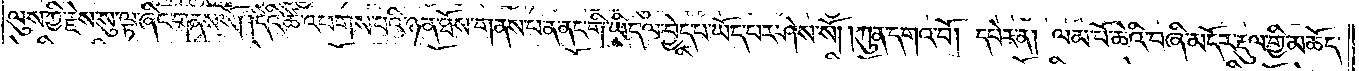ལུས་ཀྱི་རྗེས་སུ་ལྟ་ཞིང་གནས་སོ། །དེའི་ཚེ་འཕགས་པའི་ཉན་ཐོས་གནས་པ་ན་ནང་གི་ཡིད་ལ་བྱེད་པ་ཡོད་པར་ཤེས་སོ། །ཀུན་དགའ་བོ། དཔེར་ན། ལམ་པོ་ཆེའི་བཞི་མདོར་རྡུལ་གྱི་མཆོད་
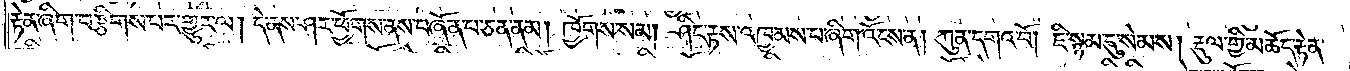རྟེན་ཞིག་བརྩིགས་པར་གྱུར་ལ། དེ་ནས་ཤར་ཕྱོགས་ནས་བཞོན་པ་ཅན་ནམ། ཁྱོགས་སམ། ཤིང་རྟས་འཁྱམས་པ་ཞིག་འོངས་ན། ཀུན་དགའ་བོ། ཇི་སྙམ་དུ་སེམས། རྡུལ་གྱི་མཆོད་རྟེན་
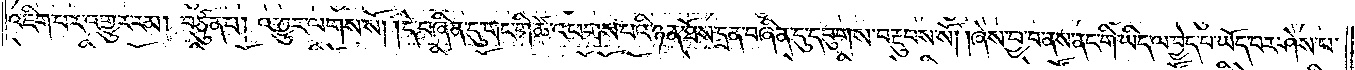འཇིག་པར་འགྱུར་རམ། བཙུན་པ། འགྱུར་ལགས་སོ། །དེ་བཞིན་དུ་གང་གི་ཚེ་འཕགས་པའི་ཉན་ཐོས་དྲན་བཞིན་དུ་དབུགས་བརྔུབས་སོ། །ཞེས་བྱ་བ་ནས་ནང་གི་ཡིད་ལ་བྱེད་པ་ཡོད་པར་ཤེས་པ་
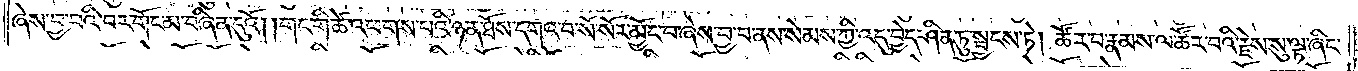ཞེས་བྱ་བའི་བར་གོང་མ་བཞིན་དུའོ། །གང་གི་ཚེ་འཕགས་པའི་ཉན་ཐོས་དགའ་བ་སོ་སོར་མྱོང་བ་ཞེས་བྱ་བ་ནས་སེམས་ཀྱི་འདུ་བྱེད་ཤིན་ཏུ་སྦྱངས་ཏེ། ཚོར་བ་རྣམས་ལ་ཚོར་བའི་རྗེས་སུ་ལྟ་ཞིང་
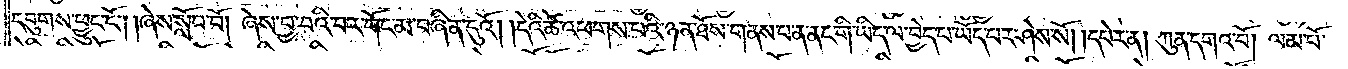དབུགས་ཕྱུང་ངོ༌། །ཞེས་སློབ་བོ། །ཞེས་བྱ་བའི་བར་གོང་མ་བཞིན་དུའོ། །དེའི་ཚེ་འཕགས་པའི་ཉན་ཐོས་གནས་པ་ན་ནང་གི་ཡིད་ལ་བྱེད་པ་ཡོད་པར་ཤེས་སོ། །དཔེར་ན། ཀུན་དགའ་བོ། ལམ་པོ་
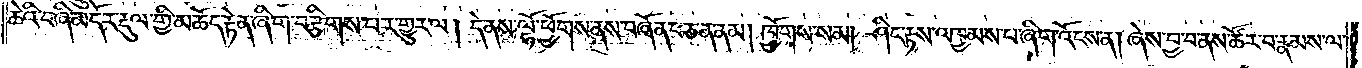ཆེའི་བཞི་མདོར་རྡུལ་གྱི་མཆོད་རྟེན་ཞིག་བརྩིགས་པར་གྱུར་ལ། དེ་ནས་ལྷོ་ཕྱོགས་ནས་བཞོན་པ་ཅན་ནམ། ཁྱོགས་སམ། ཤིང་རྟས་འཁྱམས་པ་ཞིག་འོངས་ན། ཞེས་བྱ་བ་ནས་ཚོར་བ་རྣམས་ལ་
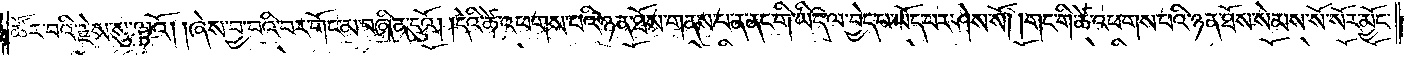ཚོར་བའི་རྗེས་སུ་ལྟའོ། །ཞེས་བྱ་བའི་བར་གོང་མ་བཞིན་དུའོ། །དེའི་ཚེ་འཕགས་པའི་ཉན་ཐོས་གནས་པ་ན་ནང་གི་ཡིད་ལ་བྱེད་པ་ཡོད་པར་ཤེས་སོ། །གང་གི་ཚེ་འཕགས་པའི་ཉན་ཐོས་སེམས་སོ་སོར་མྱོང་
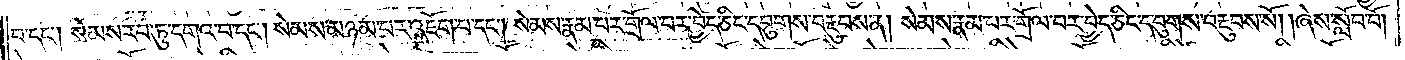བ་དང༌། སེམས་རབ་ཏུ་དགའ་བ་དང༌། སེམས་མཉམ་པར་འཇོག་པ་དང༌། སེམས་རྣམ་པར་གྲོལ་བར་བྱེད་ཅིང་དབུགས་བརྔུབས་ན། སེམས་རྣམ་པར་གྲོལ་བར་བྱེད་ཅིང་དབུགས་བརྔུབས་སོ། །ཞེས་སློབ་པོ།
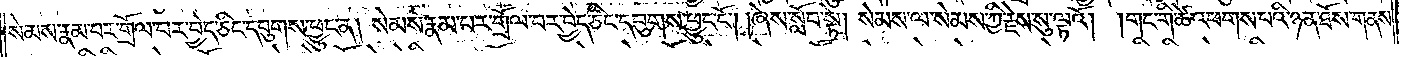སེམས་རྣམ་པར་གྲོལ་བར་བྱེད་ཅིང་དབུགས་ཕྱུང་ན། སེམས་རྣམ་པར་གྲོལ་བར་བྱེད་ཅིང་དབུགས་ཕྱུང་ངོ༌། །ཞེས་སློབ་སྟེ། སེམས་ལ་སེམས་ཀྱི་རྗེས་སུ་ལྟའོ། །གང་གི་ཚེ་འཕགས་པའི་ཉན་ཐོས་གནས་
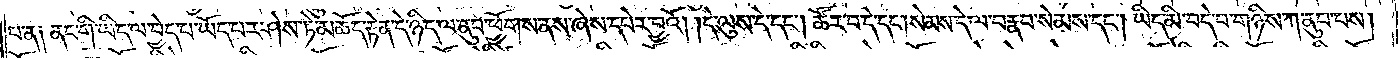པ་ན༑ ནང་གི་ཡིད་ལ་བྱེད་པ་ཡོད་པར་ཤེས་ཏེ་མཆོད་རྟེན་དེ་ཉིད་ལ་ནུབ་ཕྱོགས་ནས་ཞེས་དཔེར་བྱའོ། །དེ་ལུས་དེ་དང༌། ཚོར་བ་དེ་དང༌། སེམས་དེ་ལ་བརྣབ་སེམས་དང༌། ཡིད་མི་བདེ་བ་གཉིས་ཀ་ནུབ་པས།
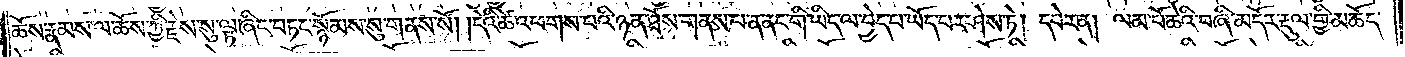ཆོས་རྣམས་ལ་ཆོས་ཀྱི་རྗེས་སུ་ལྟ་ཞིང་བཏང་སྙོམས་སུ་གནས་སོ། །དེའི་ཚེ་འཕགས་པའི་ཉན་ཐོས་གནས་པ་ན་ནང་གི་ཡིད་ལ་བྱེད་པ་ཡོད་པར་ཤེས་ཏེ། དཔེར་ན། ལམ་པོ་ཆེའི་བཞི་མདོར་རྡུལ་གྱི་མཆོད་
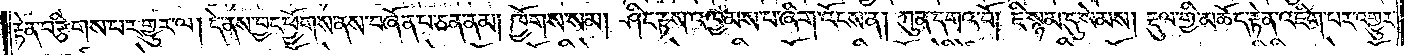རྟེན་བརྩིགས་པར་གྱུར་ལ། དེ་ནས་བྱང་ཕྱོགས་ནས་བཞོན་པ་ཅན་ནམ། ཁྱོགས་སམ། ཤིང་རྟས་འཁྱམས་པ་ཞིག་འོངས་ན། ཀུན་དགའ་བོ། ཇི་སྙམ་དུ་སེམས། རྡུལ་གྱི་མཆོད་རྟེན་འཇིག་པར་འགྱུར་
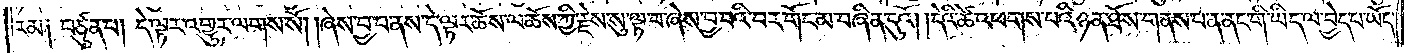རམ༏ བཙུན་པ། དེ་ལྟར་འགྱུར་ལགས་སོ། །ཞེས་བྱ་བ་ནས་དེ་ལྟར་ཆོས་ལ་ཆོས་ཀྱི་རྗེས་སུ་ལྟ་བ་ཞེས་བྱ་བའི་བར་གོང་མ་བཞིན་དུའོ། །དེའི་ཚེ་འཕགས་པའི་ཉན་ཐོས་གནས་པ་ན་ནང་གི་ཡིད་ལ་བྱེད་པ་ཡོད་
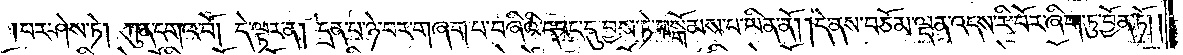།པར་ཤེས་ཏེ། ཀུན་དགའ་བོ། དེ་ལྟར་ན། དྲན་པ་ཉེ་བར་གཞག་པ་བཞིའི་དབང་དུ་བྱས་ཏེ་བསྒོམས་པ་ཡིན་ནོ། །དེ་ནས་བཅོམ་ལྡན་འདས་རི་བོར་ཞིག་ཏུ་བྱོན་ཏོ། །
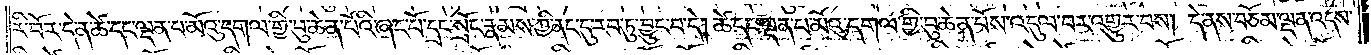རི་བོར་དེ་ན་ཚེ་དང་ལྡན་པ་མོའུ་དགལ་གྱི་བུ་ཆེན་པོའི་ཞང་པོ་དྲང་སྲོང་རྣམས་ཀྱི་ནང་དུ་རབ་ཏུ་བྱུང་བ་དེ། ཚེ་དང་ལྡན་པ་མོའུ་དགལ་གྱི་བུ་ཆེན་པོས་འདུལ་བར་འགྱུར་བས། དེ་ནས་བཅོམ་ལྡན་འདས་
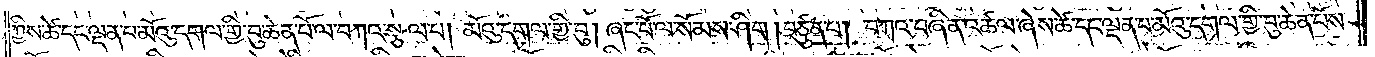ཀྱིས་ཚེ་དང་ལྡན་པ་མོའུ་དགལ་གྱི་བུ་ཆེན་པོ་ལ་བཀའ་སྩལ་པ། མོའུ་དགལ་གྱི་བུ། ཞང་པོ་ལ་སོམས་ཤིག །བཙུན་པ། བཀའ་བཞིན་འཚལ་ཞེས་ཚེ་དང་ལྡན་པ་མོའུ་དགལ་གྱི་བུ་ཆེན་པོས་
